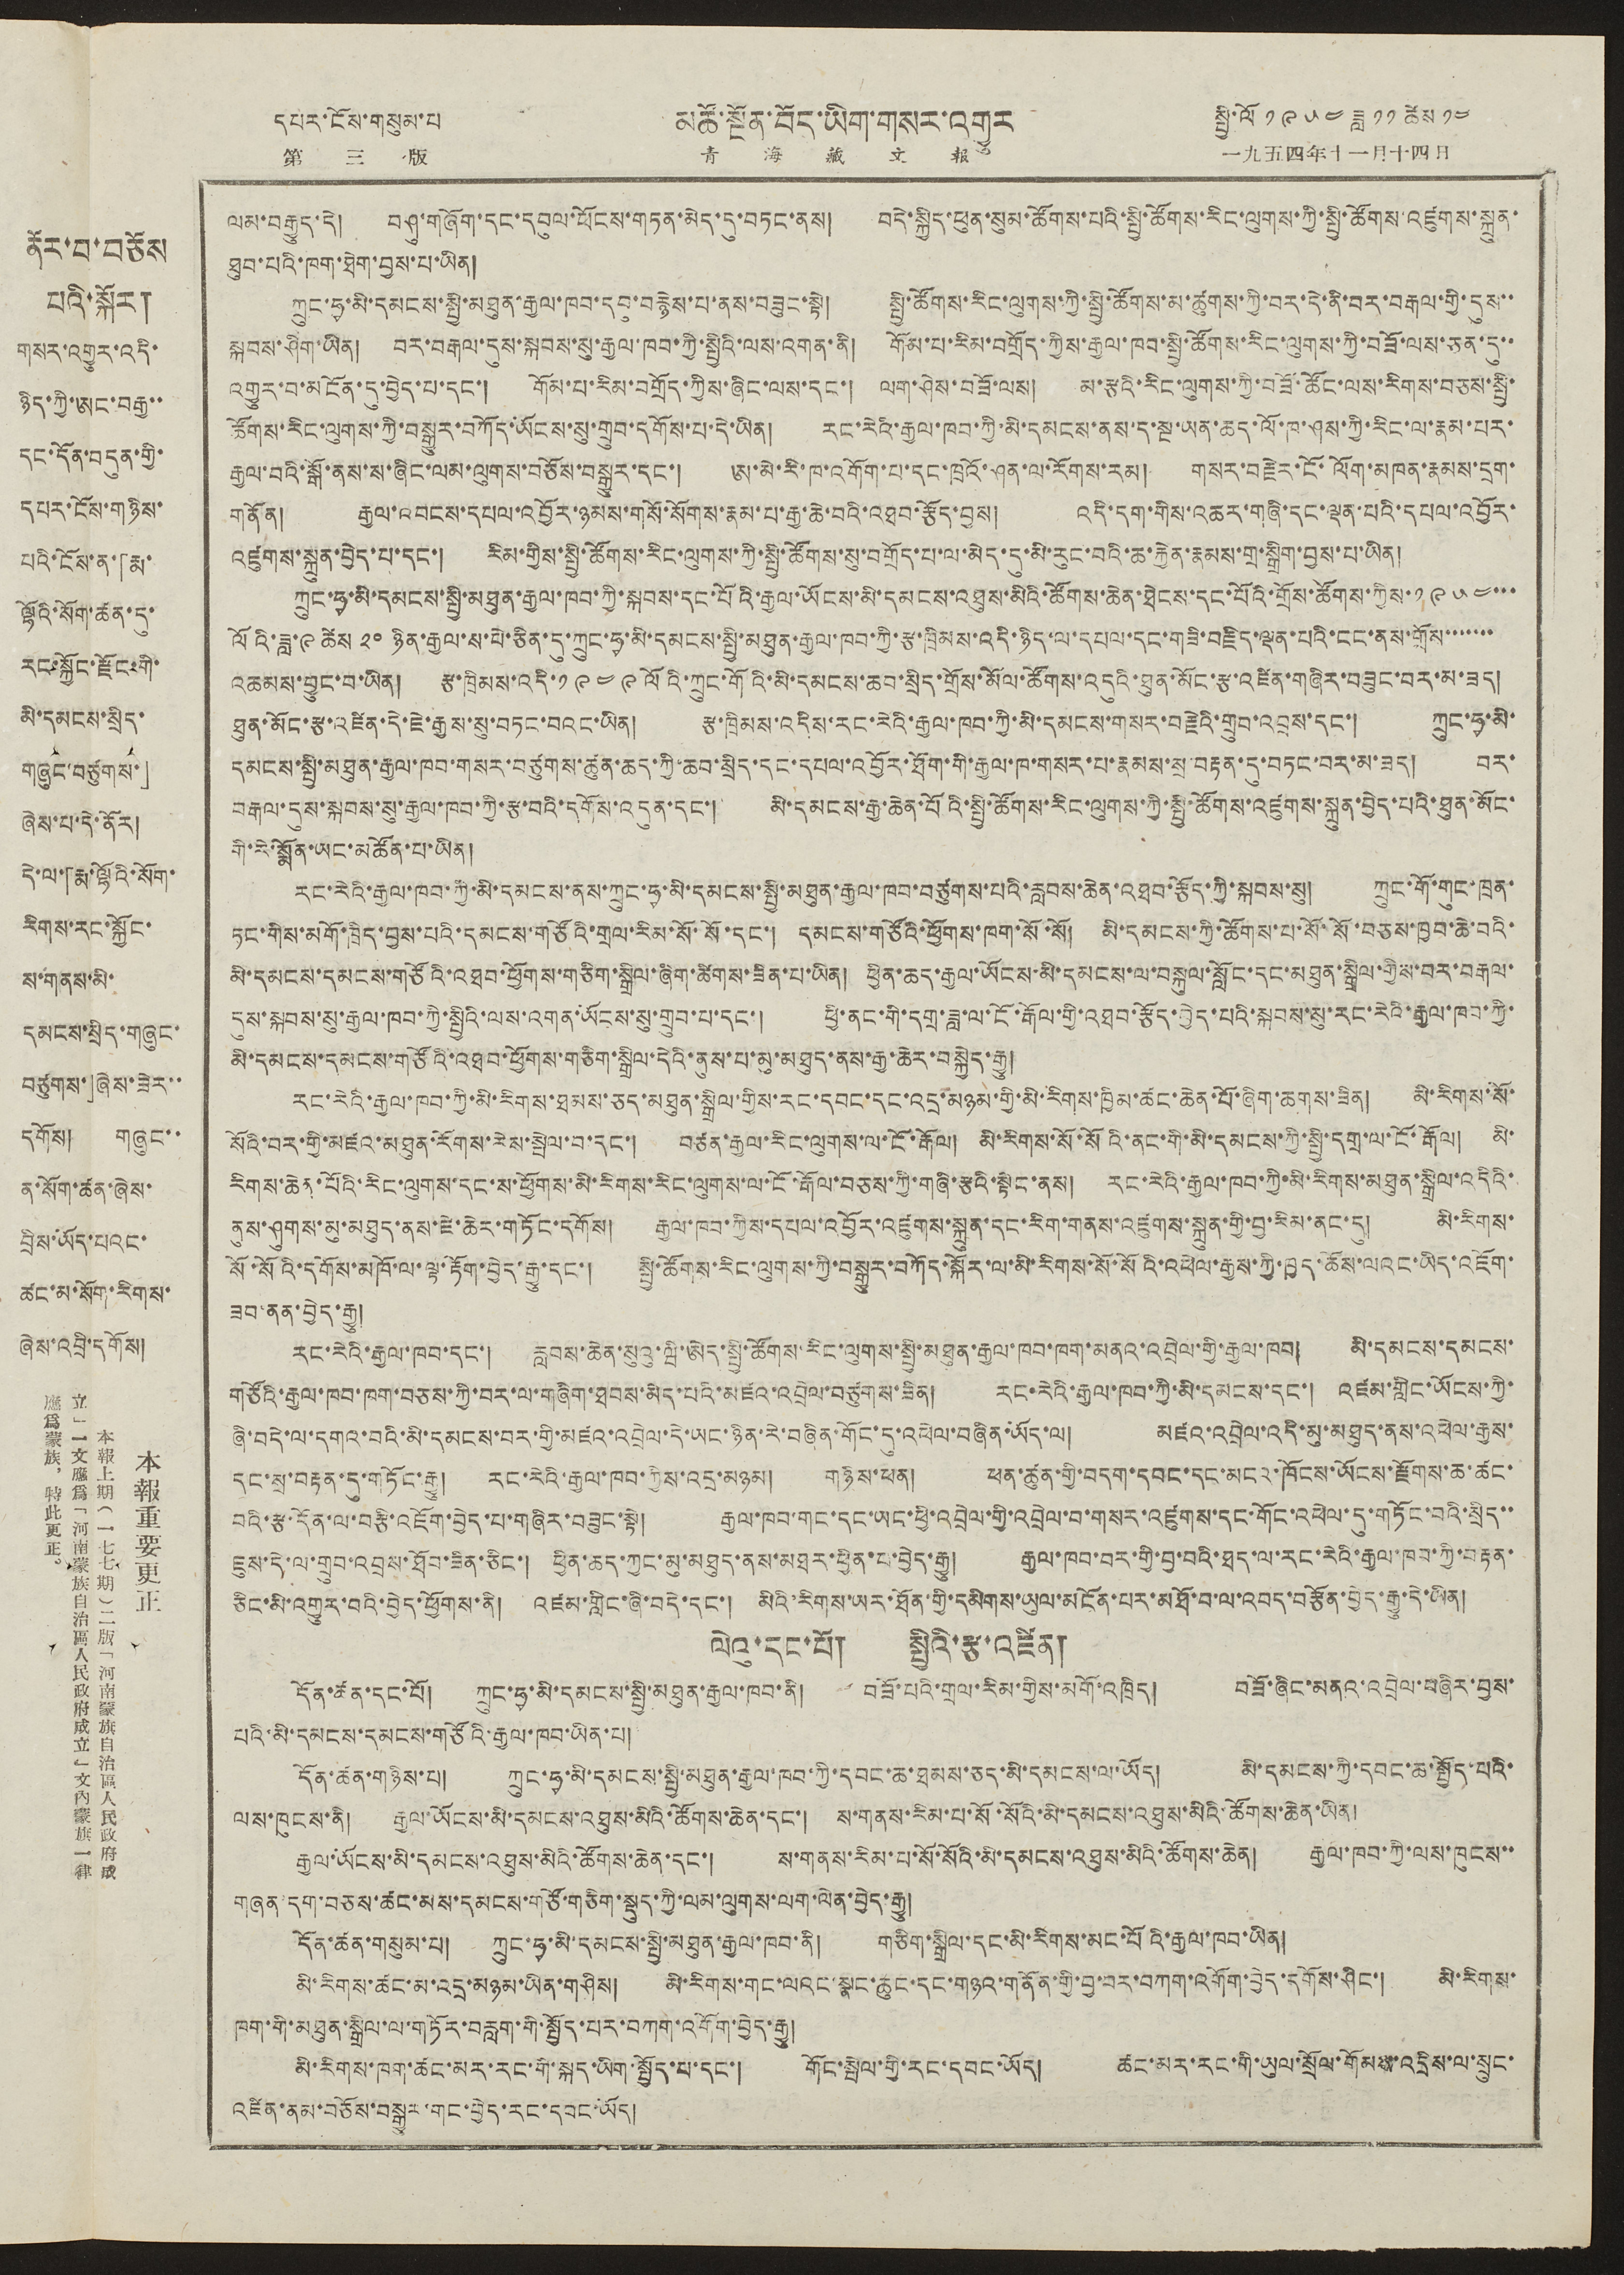དཔར་ངོས་གསུམ་པ མཚོ་སྔོན་བོད་ཡིག་གསར་འགྱུར སྤྱི་ལོ ༡༩༥༤ ཟླ ༡༡ ཚེས ༡༤
第 三版 青 藏 藏 文 報 一九五四年十一月十四日
ནོར་བ་བཅོས
པའི་སྐོར།
གསར་འགྱུར་འདི་
ཉིད་ཀྱི་ཨང་བརྒྱ་་
དང་དོན་བདུན་གྱི་
དཔར་ངོས་གཉིས་
པའི་ངོས་ན་「རྨ་
ལྷོའི་སོག་ཚན་དུ་
རང་སྐྱོང་རྫོང་གི་
མི་དམངས་སྲིད་
གཞུང་བཙུགས་」
ཞེས་པ་དེ་ནོར།
དེ་ལ་「རྨ་ལྷོའི་སོག་
རིགས་རང་སྐྱོང་
ས་གནས་མི་
དམངས་སྲིད་གཞུང་
བཙུགས་」ཞེས་ཟེར་་
དགོས། གཞུང་་
ན་སོག་ཚན་ཞེས་
བྲིས་ཡོད་པའང་
ཚང་མ་སོག་རིགས་
ཞེས་འབྲི་དགོས།
本報重要更正
本報上期（一七七期）二版「河南蒙旗自治區人民政府成
立」一文應爲「河南蒙族自治區人民政府成立」文內蒙旗一律
應爲蒙族，特此更正。
ལམ་བརྒྱུད་དེ། བཤུ་གཞོག་དནག་དབུལ་ཕོངས་གཏན་མེད་དུ་བཏང་ནས། བདེ་སྐྱིད་ཕུན་སུམ་ཚོགས་པའི་སྤྱི་ཚོགས་རིང་ལུགས་ཀྱི་སྤྱི་ཚོགས་འཛུགས་སྐྲུན་
ཐུབ་པའི་ཁག་ཐེག་བྱས་པ་ཡིན།
ཀྲུང་ཧྭ་མི་དམངས་སྤྱི་མཐུན་རྒྱལ་ཁབ་དབུ་བརྙེས་པ་ནས་བཟུང་སྟེ། སྤྱི་ཚོགས་རིང་ལུགས་ཀྱི་སྤྱི་ཚོགས་མ་ཚུགས་ཀྱི་བར་དེ་ནི་བར་བརྒལ་གྱི་དུས་་
སྐབས་ཤིག་ཡིན། བར་བརྒལ་དུས་སྐབས་རྒྱལ་ཁབ་ཀྱི་སྤྱིའི་ལས་འགན་ནི། གོམ་པ་རིམ་བགྲོད་ཀྱིས་རྒྱལ་ཁབ་སྤྱི་ཚོགས་རིང་ལུགས་ཀྱི་བཟོ་ལས་ཅན་དུ་་
འགྱུར་བ་མངོན་དུ་བྱེད་པ་དང་། གོམ་པ་རིམ་བགྲོད་ཀྱིས་ཞིང་ལས་དང་། ལག་ཤེས་བཟོ་ལས། མ་རྩའི་རིང་ལུགས་ཀྱི་བཟོ་ཚོང་ལས་རིགས་བཅས་སྤྱི་
ཚོགས་རིང་ལུགས་ཀྱི་བསྒྱུར་བཀོད་ཡོངས་སུ་གྲུབ་དགོས་པ་དེ་ཡིན། རང་རེའི་རྒྱལ་ཁབ་ཀྱི་མི་དམངས་ནས་ད་སྔ་ཡན་ཆད་ལོ་ཁ་ཤས་ཀྱི་རིང་ལ་རྣམ་པར་
རྒྱལ་བའི་སྒོ་ནས་ས་ཞིང་ལམ་ལུགས་བཅོས་བསྒྱུར་དང་། ཨ་མེ་རི་ཁ་འགོག་པ་དང་ཁྲའོ་ཤན་ལ་རོགས་རམ། གསར་བརྗེར་ངོ་ལོག་མཁན་རྣམས་དྲག་
གནོན། རྒྱལ་འབངས་དཔལ་འབྱོར་ཉམས་གསོ་སོགས་རྣམ་པ་རྒྱ་ཆེ་བའི་འཐབ་རྩོད་བྱས། འདི་དག་གིས་འཆར་གཞི་དང་ལྡན་པའི་དཔལ་འབྱོར་
འཛུགས་སྐྲུན་བྱེད་པ་དང་། རིམ་གྱིས་སྤྱི་ཚོགས་རིང་ལུགས་ཀྱི་སྤྱི་ཚོགས་སུ་བགྲོད་པ་ལ་མེད་དུ་མི་རུང་བའི་ཆ་རྐྱེན་རྣམས་གྲ་སྒྲིག་བྱས་པ་ཡིན།
ཀྲུང་ཧྭ་མི་དམངས་སྤྱི་མཐུན་རྒྱལ་ཁབ་ཀྱི་སྐབས་དང་པོའི་རྒྱལ་ཡོངས་མི་དམངས་འཐུས་མིའི་ཚོགས་ཆེན་ཐེངས་དང་པོའི་གྲོས་ཚོགས་ཀྱིས་༡ ༩ ༥ ༤་་་་
ལོའི་ཟླ་༩ ཚེས ༢༠ ཉིན་རྒྱལ་ས་པེ་ཅིན་དུ་ཀྲུང་ཧྭ་མི་དམངས་སྤྱི་མཐུན་རྒྱལ་ཁབ་ཀྱི་རྩ་ཁེིམས་འདི་ཉིད་ལ་དཔལ་དང་གཟི་བརྗིད་ལྡན་པའི་ངང་ནས་གྲོས་་་་་་་
འཆམས་བྱུང་བ་ཡིན། རྩ་ཁྲིམས་འདི་༡ ༩ ༤ ༩ ལོའི་ཀྲུང་གོའི་མི་དམངས་ཆབ་སྲིད་གྲོས་མོལ་ཚོགས་འདུའི་ཐུན་མོང་རྩ་འཛིན་གཞིར་བཟུང་བར་མ་ཟད།
ཐུན་མོང་རྩ་འཛིན་དེ་ཇེ་རྒྱས་སུ་བཏང་བའང་ཡིན། རྩ་ཁྲིམས་འདིས་རང་རེའི་རྒྱལ་ཁབ་ཀྱི་མི་དམངས་གསར་བརྗེའི་གྲུབ་འབྲས་དང་། ཀྲུང་ཧྭ་མི་
དམངས་སྤྱི་མཐུན་རྒྱལ་ཁབ་གསར་བཙུགས་ཚུན་ཆད་ཀྱི་ཆབ་སྲིད་དང་དཔལ་འབྱོར་ཐོག་གི་རྒྱལ་ཁ་གསར་པ་རྣམས་སྲ་བརྟན་དུ་བཏང་བར་མ་ཟད། བར་
བརྒལ་དུས་སྐབས་སུ་རྒྱལ་ཁབ་ཀྱི་རྩ་བའི་དགོས་འདུན་དང་། མི་དམངས་རྒྱ་ཆེན་པོའི་སྤྱི་ཚོགས་རིང་ལུགས་ཀྱི་སྤྱི་ཚོགས་འཛུགས་སྐྲུན་བྱེད་པའི་ཐུན་མོང་
གི་རེ་སྨོན་ཡང་མཚོན་པ་ཡིན།
རང་རེའི་རྒྱལ་ཁབ་ཀྱི་མི་དམངས་ནས་ཀྲུང་ཧྭ་མི་དམངས་སྤྱི་མཐུན་རྒྱལ་ཁབ་བཙུགས་པའི་རླབས་ཆེན་འཐབ་རྩོད་ཀྱི་སྐབས་སུ། ཀྲུང་གོ་གུང་ཁྲན་
ཏང་གིས་མགོ་ཁྲིད་བྱས་པའི་དམངས་གཙོའི་གྲལ་རིམ་སོ་སོ་དང་། དམངས་གཙོའི་ཕྱོགས་ཁག་སོ་སོ། མི་དམངས་ཀྱི་ཚོགས་པ་སོ་སོ་བཅས་ཁྱབ་ཆེ་བའི་
མི་དམངས་དམངས་གཙོའི་འཐབ་ཕྱོགས་གཅིག་སྒྲིལ་ཞིག་ཚིགས་ཟིན་པ་ཡིན། ཕྱིན་ཆད་རྒྱལ་ཡོངས་མི་དམངས་ལ་བསྐུལ་སློང་དང་མཐུན་སྒྲིལ་གྱིས་བར་བརྒལ་
དུས་སྐབས་སུ་རྒྱལ་ཁབ་ཀྱི་སྤྱིའི་ལས་འགན་ཡོངས་སུ་གྲུབ་པ་དང་། ཕྱི་ནང་གི་དགྲ་ཟླ་ལ་ངོ་རྒོལ་གྱི་འཐབ་རྩོད་བྱེད་པའི་སྐབས་སུ་རང་རེའི་རྒྱལ་ཁབ་ཀྱི་
མི་དམངས་དམངས་གཙོའི་འཐབ་ཕྱོགས་གཅིག་སྒྲིལ་དེའི་ནུས་པ་མུ་མཐུད་ནས་རྒྱ་ཆེར་བསྐྱེད་རྒྱུ།
རང་རེའི་རྒྱལ་ཁབ་ཀྱི་མི་རིགས་ཐམས་ཅད་མཐུན་སྒྲིལ་གྱིས་རང་དབང་དང་འདྲ་མཉམ་གྱི་མི་རིགས་ཁྱིམ་ཚང་ཆེན་པོ་ཞིག་ཆགས་ཟིན། མི་རིགས་སོ་
སོའི་བར་གྱི་མཛའ་མཐུན་རོགས་རེས་སྤེལ་བ་དང་། བཙན་རྒྱལ་རིང་ལུགས་ལ་ངོ་རྒོལ། མི་རིགས་སོ་སོའི་ནང་གི་མི་དམངས་ཀྱི་སྤྱི་དགྲ་ལ་ངོ་རྒོལ། མི་
རིགས་ཆེན་པོའི་རིང་ལུགས་དང་ས་ཕྱོགས་མི་རིགས་རིང་ལུགས་ལ་ངོ་རྒོལ་བཅས་ཀྱི་གཞི་རྩའི་སྟེང་ནས། རང་རེའི་རྒྱལ་ཁབ་ཀྱི་མི་རིགས་མཐུན་སྒྲིལ་འདིའི་
ནུས་ཤུགས་མུ་མཐུད་ནས་ཇེ་ཆེར་གཏོང་དགོས། རྒྱལ་ཁབ་ཀྱིས་དཔལ་འབྱོར་འཛུགས་སྐྲུན་དང་རིག་གནས་འཛུགས་སྐྲུན་གྱི་བྱ་རིམ་ནང་དུ། མི་རིགས་
སོ་སོའི་དགོས་མཁོ་ལ་ལྟ་རྟོག་བྱེད་རྒྱུ་དང་། སྤྱི་ཚོགས་རིང་ལུགས་ཀྱི་བསྒྱུར་བཀོད་སྒོར་ལ་མི་རིགས་སོ་སོའི་འཕེལ་རྒྱས་ཀྱི་ཁྱད་ཆོས་ལའང་ཡིད་འཇོག་
ཟབ་ནན་བྱེད་རྒྱུ།
རང་རེའི་རྒྱལ་ཁབ་དང་། རླབས་ཆེན་སུའུ་ཝི་ཨེད་སྤྱི་ཚོགས་རིང་ལུགས་སྤྱི་མཐུན་རྒྱལ་ཁབ་ཁག་མནའ་འབྲེལ་གྱི་རྒྱལ་ཁབ། མི་དམངས་དམངས་
གཙོའི་རྒྱལ་ཁབ་ཁག་བཅས་ཀྱི་བར་ལ་གཞིག་ཐབས་མེད་པའི་མཛའ་འབྲེལ་བཙུགས་ཟིན། རང་རེའི་རྒྱལ་ཁབ་ཀྱི་མི་དམངས་དང་། འཛམ་གླིང་ཡོངས་ཀྱི་
ཞི་བདེ་ལ་དགའ་བའི་མི་དམངས་བར་གྱི་མཛའ་འབྲེལ་དེ་ཡང་ཉིན་རེ་བཞིན་གོང་དུ་འཕེལ་བཞིན་ཡོད་ལ། མཛའ་འབྲེལ་འདི་མུ་མཐུད་ནས་འཕེལ་རྒྱས་
དང་སྲ་བརྟན་དུ་གཏོང་རྒྱུ། རང་རེའི་རྒྱལ་ཁབ་ཀྱིས་འདྲ་མཉམ། གཉིས་ཕན། ཕན་ཚུན་གྱི་བདག་དབང་དང་མངའ་ཁོངས་ཡོངས་རྫོགས་ཆ་ཚང་
བའི་རྩ་དོན་ལ་བརྩི་འཇོག་བྱེད་པ་གཞིར་བཟུང་སྟེ། རྒྱལ་ཁབ་གང་དང་ཡང་ཕྱི་འབྲེལ་གྱི་འབྲེལ་བ་གསར་འཛུགས་དང་གོང་འཕེལ་དུ་གཏོང་བའི་སྲིད་་
ཇུས་དེ་ལ་གྲུབ་འབྲས་ཐོབ་ཟིན་ཅིང་། ཕྱིན་ཆད་ཀྱང་མུ་མཐུད་ནས་མཐར་ཕྱིན་པ་བྱེད་རྒྱུ། རྒྱལ་ཁབ་བར་གྱི་བྱ་བའི་ཐད་ལ་རང་རེའི་རྒྱལ་ཁབ་ཀྱི་བརྟན་
ཅིང་མི་འགྱུར་བའི་བྱེད་ཕྱོགས་ནི། འཛམ་གླིང་ཞི་བདེ་དང་། མིའི་རིགས་ཡར་ཐོན་གྱི་དམིགས་ཡུལ་མངོན་པར་མཐོ་བ་ལ་འབད་བརྩོན་བྱེད་རྒྱུ་དེ་ཡིན།
ལེའུ་དང་པོ། སྤྱིའི་རྩ་འཛིན།
དོན་ཚན་དང་པོ།
ཀྲུང་ཧྭ་མི་དམངས་སྤྱི་མཐུན་རྒྱལ་ཁབ་ནི། བཟོ་པའི་གྲལ་རིམ་གྱིས་མགོ་འཁྲིད། བཟོ་ཞིང་མནའ་འབྲེལ་བཞིར་བྱས་
པའི་མི་དམངས་དམངས་གཙོའི་རྒྱལ་ཁབ་ཡིན་པ།
དོན་ཚན་གཉིས་པ།
ཀྲུང་ཧྭ་མི་དམངས་སྤྱི་མཐུན་རྒྱལ་ཁབ་ཀྱི་དབང་ཆ་ཐམས་ཅད་མི་དམངས་ལ་ཡོད། མི་དམངས་ཀྱི་དབང་ཆ་སྤྱོད་པའི་
ལས་ཁུངས་ནི། རྒྱལ་ཡོངས་མི་དམངས་འཐུས་མིའི་ཚོགས་ཆེན་དང་། ས་གནས་རིམ་པ་སོ་སོའི་མི་དམངས་འཐུས་མིའི་ཚོགས་ཆེན་ཡིན།
རྒྱལ་ཡོངས་མི་དམངས་འཐུས་མིའི་ཚོགས་ཆེན་དང་། ས་གནས་རིམ་པ་སོ་སོའི་མི་དམངས་འཐུས་མིའི་ཚོགས་ཆེན། རྒྱལ་ཁབ་ཀྱི་ལས་ཁུངས་་
གཞན་དག་བཅས་ཚང་མས་དམངས་གཙོ་གཅིག་སྡུད་ཀྱི་ལམ་ལུགས་ལག་ལེན་བྱེད་རྒྱུ།
དོན་ཚན་གསུམ་པ།
ཀྲུང་ཧྭ་མི་དམངས་སྤྱི་མཐུན་རྒྱལ་ཁབ་ནི། གཅིག་སྒྲིལ་དང་མི་རིགས་མང་པོའི་རྒྱལ་ཁབ་ཡིན།
མི་རིགས་ཚང་མ་འདྲ་མཉམ་ཡིན་གཤིས། མི་རིགས་གང་ལའང་སྣང་ཆུང་དང་གཉའ་གནོན་གྱི་བྱ་བར་བཀག་འགོག་བྱེད་དགོས་ཤིང་། མི་རིགས་
ཁག་གི་མཐུན་སྒྲིལ་ལ་གཏོར་བརླག་གི་སྤྱོད་པར་བཀག་འགོག་བྱེད་རྒྱུ།
མི་རིགས་ཁག་ཚང་མར་རང་གི་སྐད་ཡིག་སྤྱོད་པ་དང་། གོང་སྤེལ་གྱི་རང་དབང་ཡོད། ཚང་མར་རང་གི་ཡུལ་སྲོལ་གོམས་འདྲིས་ལ་སྲུང་
འཛིན་ནམ་བཅོས་བསྒྱུར་གང་བྱེད་རང་དབང་ཡོད།
